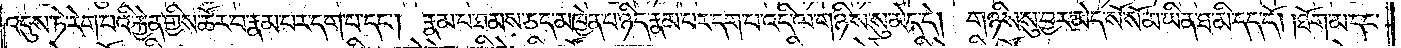འདུས་ཏེ་རེག་པའི་རྐྱེན་གྱིས་ཚོར་བ་རྣམ་པར་དག་པ་དང༌། རྣམ་པ་ཐམས་ཅད་མཁྱེན་པ་ཉིད་རྣམ་པར་དག་པ་འདི་ལ་གཉིས་སུ་མེད་དེ། གཉིས་སུ་བྱར་མེད་སོ་སོ་མ་ཡིན་ཐ་མི་དད་དོ། །ཐོག་མ་དང་
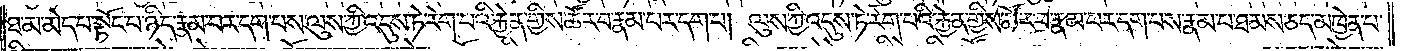ཐ་མ་མེད་པ་སྟོང་པ་ཉིད་རྣམ་པར་དག་པས་ལུས་ཀྱི་འདུས་ཏེ་རེག་པའི་རྐྱེན་གྱིས་ཚོར་བ་རྣམ་པར་དག་པ། ལུས་ཀྱི་འདུས་ཏེ་རེག་པའི་རྐྱེན་གྱིས་ཚོར་བ་རྣམ་པར་དག་པས་རྣམ་པ་ཐམས་ཅད་མཁྱེན་པ་
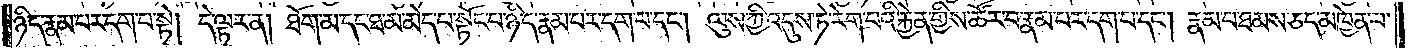ཉིད་རྣམ་པར་དག་པ་སྟེ། དེ་ལྟར་ན། ཐོག་མ་དང་ཐ་མ་མེད་པ་སྟོང་པ་ཉིད་རྣམ་པར་དག་པ་དང༌། ལུས་ཀྱི་འདུས་ཏེ་རེག་པའི་རྐྱེན་གྱིས་ཚོར་བ་རྣམ་པར་དག་པ་དང༌། རྣམ་པ་ཐམས་ཅད་མཁྱེན་པ་
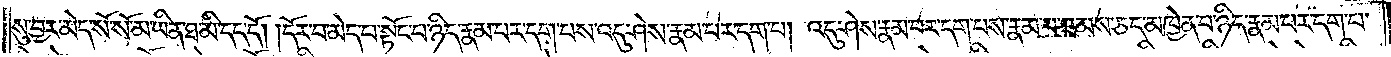སུ་བྱར་མེད་སོ་སོ་མ་ཡིན་ཐ་མི་དད་དོ། །དོར་བ་མེད་པ་སྟོང་པ་ཉིད་རྣམ་པར་དག་པས་འདུ་ཤེས་རྣམ་པར་དག་པ། འདུ་ཤེས་རྣམ་པར་དག་པས་རྣམ་པ་ཐམས་ཅད་མཁྱེན་པ་ཉིད་རྣམ་པར་དག་པ་
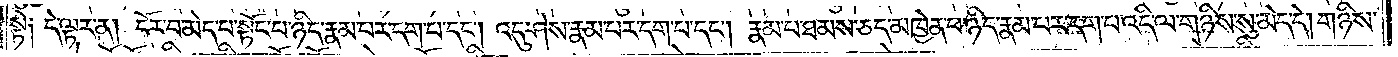སྟེ༑ དེ་ལྟར་ན། དོར་བ་མེད་པ་སྟོང་པ་ཉིད་རྣམ་པར་དག་པ་དང༌། འདུ་ཤེས་རྣམ་པར་དག་པ་དང༌། རྣམ་པ་ཐམས་ཅད་མཁྱེན་པ་ཉིད་རྣམ་པར་དག་པ་འདི་ལ་གཉིས་སུ་མེད་དེ། གཉིས་
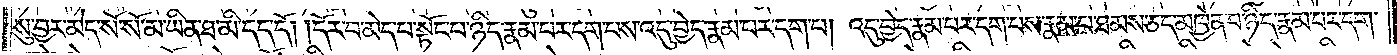སུ་བྱར་མེད་སོ་སོ་མ་ཡིན་ཐ་མི་དད་དོ། །དོར་བ་མེད་པ་སྟོང་པ་ཉིད་རྣམ་པར་དག་པས་འདུ་བྱེད་རྣམ་པར་དག་པ། འདུ་བྱེད་རྣམ་པར་དག་པས་རྣམ་པ་ཐམས་ཅད་མཁྱེན་པ་ཉིད་རྣམ་པར་དག་
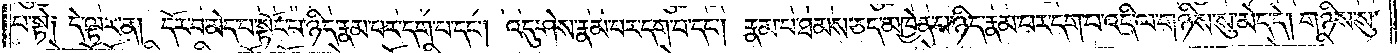པ་སྟེ༑ དེ་ལྟར་ན། དོར་བ་མེད་པ་སྟོང་པ་ཉིད་རྣམ་པར་དག་པ་དང༌། འདུ་བྱེད་རྣམ་པར་དག་པ་དང༌། རྣམ་པ་ཐམས་ཅད་མཁྱེན་པ་ཉིད་རྣམ་པར་དག་པ་འདི་ལ་གཉིས་སུ་མེད་དེ། གཉིས་སུ་
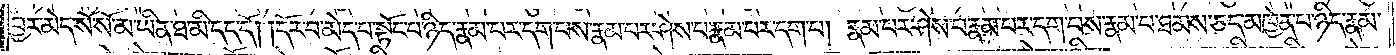བྱར་མེད་སོ་སོ་མ་ཡིན་ཐ་མི་དད་དོ། །དོར་བ་མེད་པ་སྟོང་པ་ཉིད་རྣམ་པར་དག་པས་རྣམ་པར་ཤེས་པ་རྣམ་པར་དག་པ། རྣམ་པར་ཤེས་པ་རྣམ་པར་དག་པས་རྣམ་པ་ཐམས་ཅད་མཁྱེན་པ་ཉིད་རྣམ་
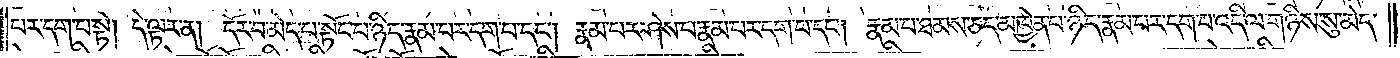པར་དག་པ་སྟེ། དེ་ལྟར་ན། དོར་བ་མེད་པ་སྟོང་པ་ཉིད་རྣམ་པར་དག་པ་དང༌། རྣམ་པར་ཤེས་པ་རྣམ་པར་དག་པ་དང༌། རྣམ་པ་ཐམས་ཅད་མཁྱེན་པ་ཉིད་རྣམ་པར་དག་པ་འདི་ལ་གཉིས་སུ་མེད་
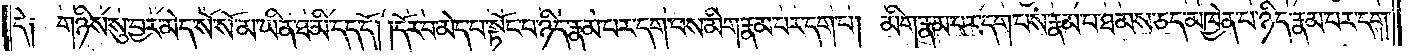དེ༑ གཉིས་སུ་བྱར་མེད་སོ་སོ་མ་ཡིན་ཐ་མི་དད་དོ། །དོར་བ་མེད་པ་སྟོང་པ་ཉིད་རྣམ་པར་དག་པས་མིག་རྣམ་པར་དག་པ། མིག་རྣམ་པར་དག་པས་རྣམ་པ་ཐམས་ཅད་མཁྱེན་པ་ཉིད་རྣམ་པར་དག་
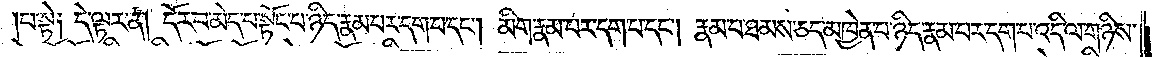པ་སྟེ༑ དེ་ལྟར་ན། དོར་བ་མེད་པ་སྟོང་པ་ཉིད་རྣམ་པར་དག་པ་དང༌། མིག་རྣམ་པར་དག་པ་དང༌། རྣམ་པ་ཐམས་ཅད་མཁྱེན་པ་ཉིད་རྣམ་པར་དག་པ་འདི་ལ་གཉིས་
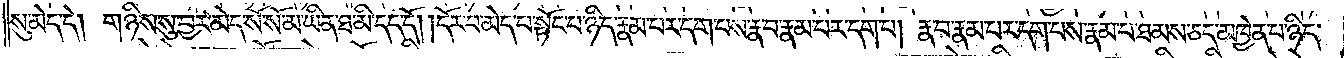སུ་མེད་དེ། གཉིས་སུ་བྱར་མེད་སོ་སོ་མ་ཡིན་ཐ་མི་དད་དོ། །དོར་བ་མེད་པ་སྟོང་པ་ཉིད་རྣམ་པར་དག་པས་རྣ་བ་རྣམ་པར་དག་པ། རྣ་བ་རྣམ་པར་དག་པས་རྣམ་པ་ཐམས་ཅད་མཁྱེན་པ་ཉིད་
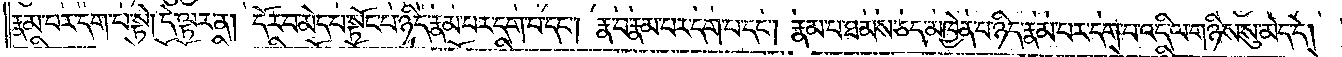རྣམ་པར་དག་པ་སྟེ། དེ་ལྟར་ན། དོར་བ་མེད་པ་སྟོང་པ་ཉིད་རྣམ་པར་དག་པ་དང༌། རྣ་བ་རྣམ་པར་དག་པ་དང༌། རྣམ་པ་ཐམས་ཅད་མཁྱེན་པ་ཉིད་རྣམ་པར་དག་པ་འདི་ལ་གཉིས་སུ་མེད་དེ།
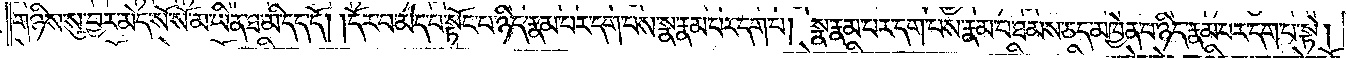གཉིས་སུ་བྱར་མེད་སོ་སོ་མ་ཡིན་ཐ་མི་དད་དོ། །དོར་བ་མེད་པ་སྟོང་པ་ཉིད་རྣམ་པར་དག་པས་སྣ་རྣམ་པར་དག་པ། སྣ་རྣམ་པར་དག་པས་རྣམ་པ་ཐམས་ཅད་མཁྱེན་པ་ཉིད་རྣམ་པར་དག་པ་སྟེ།
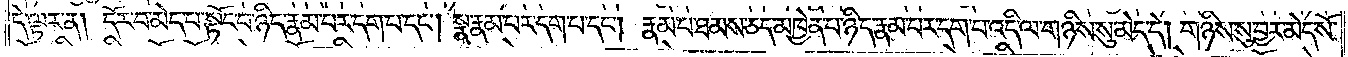དེ་ལྟར་ན། དོར་བ་མེད་པ་སྟོང་པ་ཉིད་རྣམ་པར་དག་པ་དང༌། སྣ་རྣམ་པར་དག་པ་དང༌། རྣམ་པ་ཐམས་ཅད་མཁྱེན་པ་ཉིད་རྣམ་པར་དག་པ་འདི་ལ་གཉིས་སུ་མེད་དེ། གཉིས་སུ་བྱར་མེད་སོ་
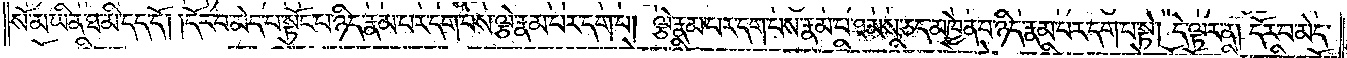སོ་མ་ཡིན་ཐ་མི་དད་དོ། །དོར་བ་མེད་པ་སྟོང་པ་ཉིད་རྣམ་པར་དག་པས་ལྕེ་རྣམ་པར་དག་པ། ལྕེ་རྣམ་པར་དག་པས་རྣམ་པ་ཐམས་ཅད་མཁྱེན་པ་ཉིད་རྣམ་པར་དག་པ་སྟེ། དེ་ལྟར་ན། དོར་བ་མེད་
